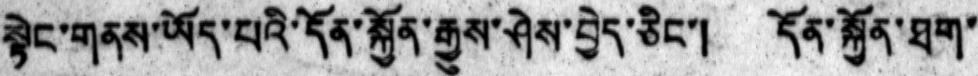སྟེང་གནས་ཡོད་པའི་དོན་སྐྱོན་རྒྱུས་ཤེས་བྱེད་ཅིང་། དོན་སྐྱོན་ཐག་
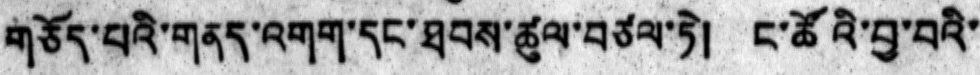གཅོད་པའི་གནད་འགག་དང་ཐབས་ཚུལ་བཙལ་ཏེ། ང་ཚོའི་བྱ་བའི་
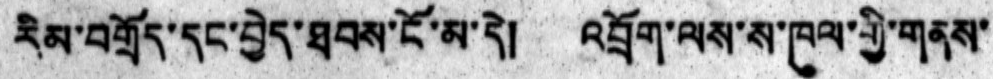རིམ་བགྲོད་དང་བྱེད་ཐབས་ངོ་མ་དེ། འབྲོག་ལས་ས་ཁུལ་གྱི་གནས་
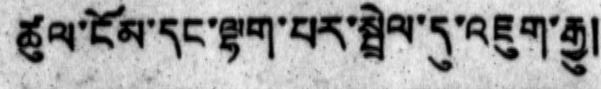ཚུལ་ངོམ་དང་ལྷག་པར་སྤྲེལ་དུ་འཇུག་རྒྱུ།
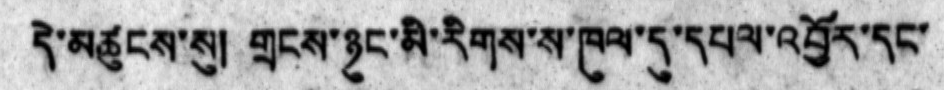དེ་མཚུངས་སུ། གྲངས་ཉུང་མི་རིགས་ས་ཁུལ་དུ་དཔལ་འབྱོར་དང་
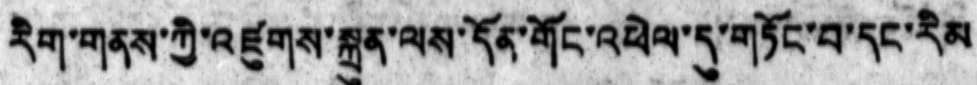རིག་གནས་ཀྱི་འཛུགས་སྐྲུན་ལས་དོན་གོང་འཕེལ་དུ་གཏོང་བ་དང་རིམ
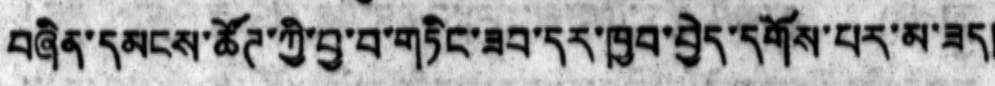བཞིན་དམངས་ཚོཊ་ཀྱི་བྱ་བ་གཏིང་ཟབ་དར་ཁྱབ་བྱེད་དགོས་པར་མ་ཟད།
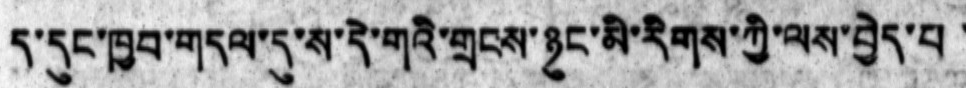ད་དུང་ཁྱབ་གདལ་དུ་ས་དེ་གའི་གྲངས་ཉུང་མི་རིགས་ཀྱི་ལས་བྱེད་པ་
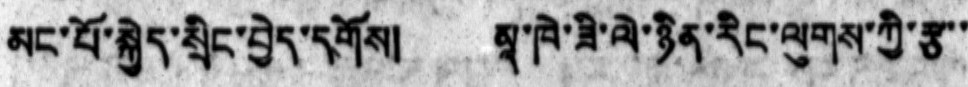མང་པོ་སྐྱེད་སྲིང་བྱེད་དགོས། མཱ་ཁེ་ཟི་ལེ་ཉིན་རིང་ལུགས་ཀྱི་རྩ་་
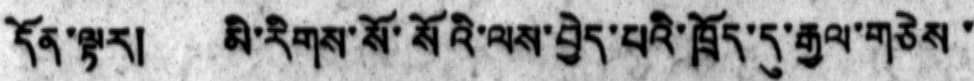དོན་ལྟར། མི་རིགས་སོ་སོའི་ལས་བྱེད་པའི་ཁྲོད་དུ་རྒྱལ་གཅེས་
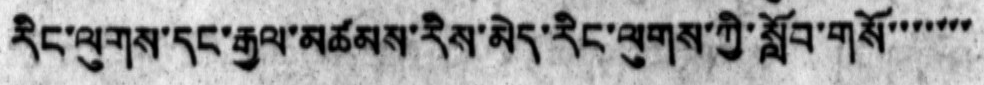རིང་ལུགས་དང་རྒྱལ་མཚམས་རིས་མེད་རིང་ལུགས་ཀྱི་སློབ་གསོ་་་་་་
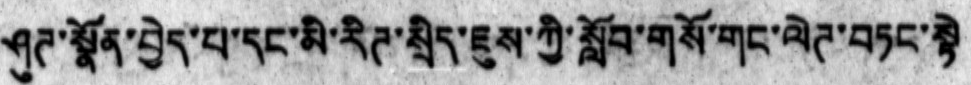ཤུཊ་སྣོན་བྱེད་པ་དང་མི་རིཊ་སྲིད་ཇུས་ཀྱི་སློབ་གསོ་གང་ལེཊ་བཏང་སྟེ
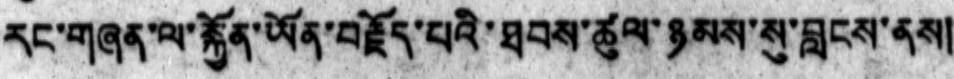རང་གཞན་ལ་སྐྱོན་ཡོན་བརྗོད་པའི་ཐབས་ཚུལ་ཉམས་སུ་བླངས་ནས།
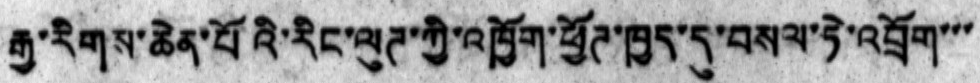རྒྱ་རིགས་ཆེན་པོའི་རིང་ལུཊ་ཀྱི་འཁྱོག་ཕྱོཊ་ཁྱད་དུ་བསལ་ཏེ་འབྲོག་་་
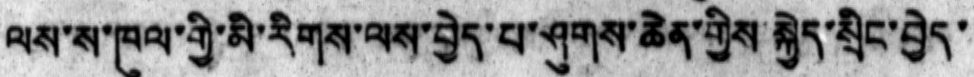ལས་ས་ཁུལ་གྱི་མི་རིགས་ལས་བྱེད་པ་ཤུགས་ཆེན་གྱིས་སྐྱེད་སྲིང་བྱེད་
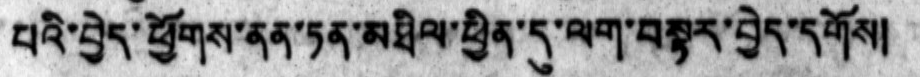པའི་བྱེད་ཕྱོགས་ནན་ཏན་མཐིལ་ཕྱིན་དུ་ལག་བསྟར་བྱེད་དགོས།
